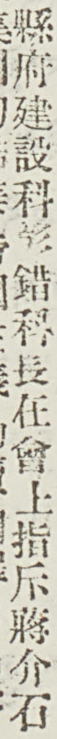縣府建設科彭錯科長在會上指斥蔣介石
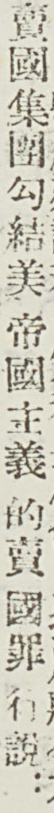賣國集團勾結美帝國主義 的賣 國罪行說：
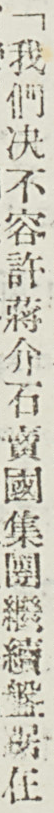「我們絕不容許蔣介石賣國集團繼續盤踞在
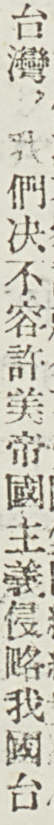台灣，我們絕不容許美帝國主義侵略我國台
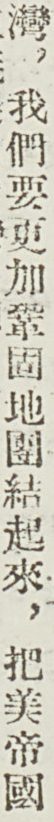灣，我們要更加鞏固地團結起來，把美帝國
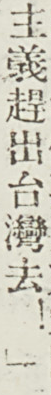主義趕出台灣去！」
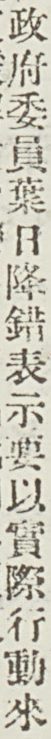政府委員葉日降錯表示要以實際行動來
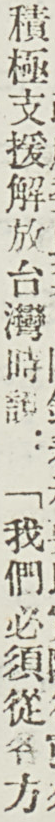積極支援解放台灣時說：「我們必須從各方
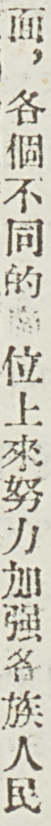面，各個不同的崗位上來努力加強各族人民
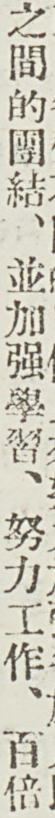之間的團結、並加強學習、努力工作、百倍
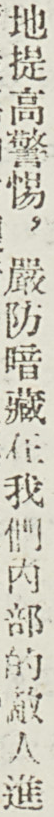地提高警惕，嚴防暗藏在我們內部的敵人進
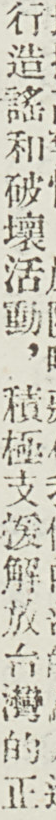行造謠和破壞活動，積極支援解放台灣的正
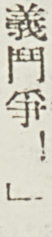義鬥爭！」
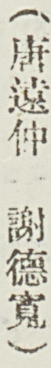（唐遠仲 謝德寬）
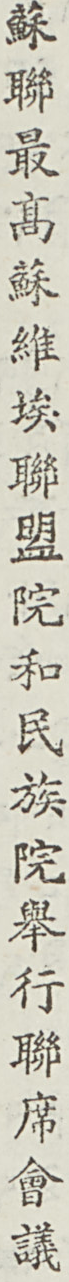蘇聯最高蘇維埃聯盟院和民族院舉行聯席會議
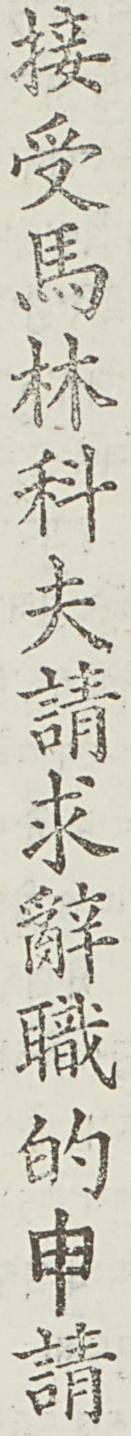接受馬林科夫請求辭職的申請
